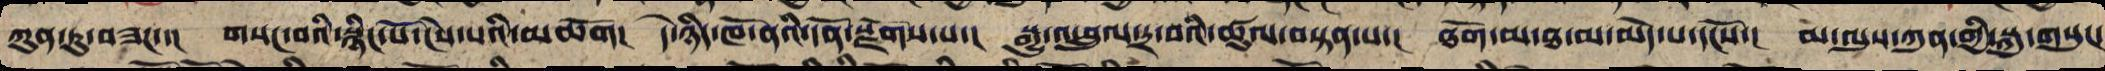ཀུན་ཏུ་བཟང་་། གསང་བའི་སྙིང་པོ་ངེས་པའི་མཆོག། དེ་ཉིད་ཁོ་ནའི་དོན་སྫོགས་པ་། སྒྱུ་འཕྲུལ་དྲ་བའི་ཚུལ་བསྟན་པ་། ཐོག་མ་ཐ་མ་མེད་པའི་དངོས་། མ་ལུས་ཀུན་གྱི་སྐུ་གསུང་
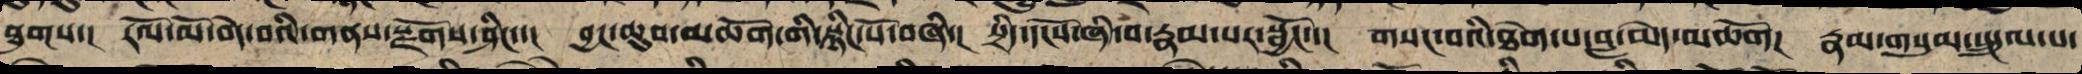ཐུགས་། རོལ་མོ་བདེ་བའི་གནས་སྫོགས་ཤིང་་། བྱང་ཆུབ་མཆོག་གི་སྙིང་པོ་བཞི་། སྲིད་དངོས་ཞི་བར་རྣམ་པར་སྦྱོང་་། གསང་བའི་ཐེག་པ་བླ་མེད་མཆོག། རྣམ་གསུམ་སྤྲུལ་པ་
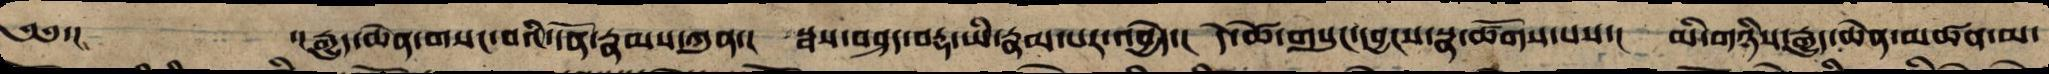༄༅་། ་།རྒྱུད་ཆེན་གསང་བའི་དོན་རྣམས་ཀུན་། སྦས་བཤད་བརྡ་ཡིས་རྣམ་པར་འབྱེད་། དེ་ཚེ་གསུང་དབྱངས་སྣ་ཚོགས་པས་། མི་གཉིས་རྒྱུད་ཆེན་མཚན་མ་
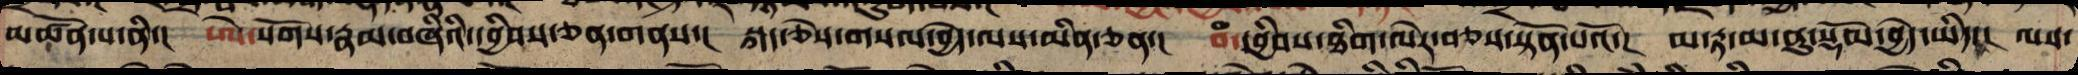མཚོན་པ་ནི་། ཨེ་སོགས་རྣམ་བཞིའི་དབྱིབས་ཅན་གནས་། སྐད་ཅེས་གསལ་བྱེད་ལས་མིང་ཅན་། བཾ་དབྱིབས་ཐིག་ལེར་བཅས་སྟོན་པའོ་། མ་རྟ་མ་ནུ་སྡོམ་བྱེད་ཡིད་། ལས་
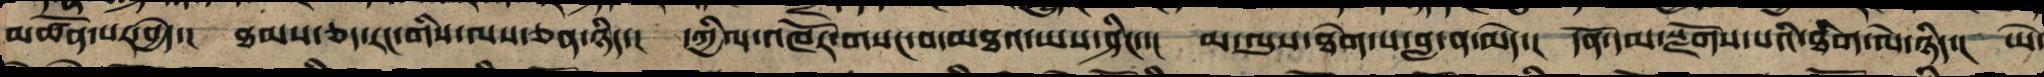མཚོན་པར་བྱེད་། ཐམས་ཅད་རང་གི་ལས་ཅན་ཉིད་། དཀྱིལ་འཁོར་གསང་བ་མཐའ་ཡས་ཤིང་་། མ་ལུས་ཐེག་པ་བླ་ན་མེད་། དོན་དམ་སྫོགས་པའི་ཐིག་ལེ་ཉིད་། ཡེ་
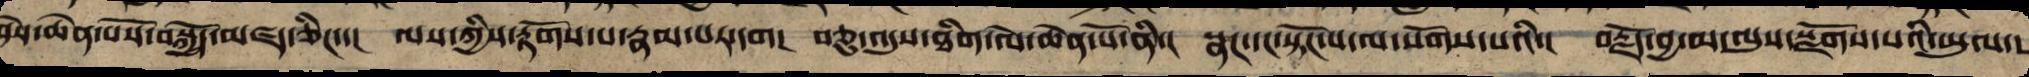ཤེས་ཆེན་པོས་བསྐྱོད་མཛད་ཅིང་་། ལས་ཀྱི་རྟོག་པ་རྣམ་པར་དག། བཅུ་འདུས་ཐིག་ལེ་ཆེན་པོ་ནི་། སྣང་དང་སྟོང་པ་ལ་སོགས་པའི་། བརྗོད་བྱ་མ་ལུས་སྫོགས་པའི་ཡུལ་
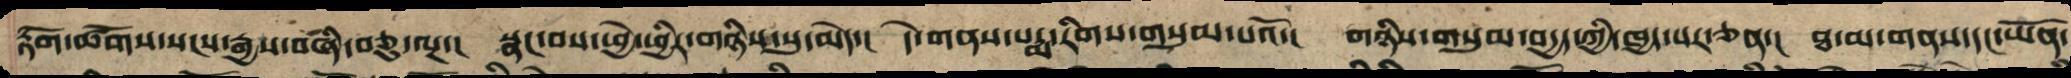རྟོག་ཚོགས་སངས་རྒྱས་བཞི་བཅུ་ལྔ་། སྣང་བས་ཕྱེ་ཕྱིར་གཉིས་སུ་མེད་། དེ་གནས་པདྨ་རིགས་གསུམ་པའོ་། གཉིས་གསུམ་བདྱད་ཀྱི་ཁྱད་པར་ཅན་། ཐ་མ་གནས་དང་ཡོན་
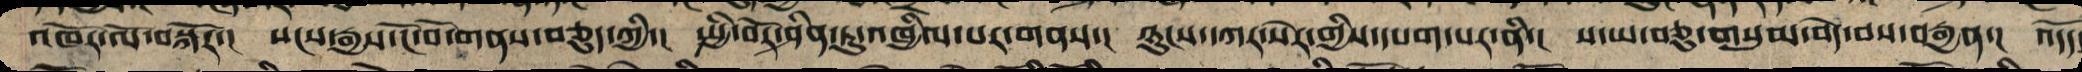འཁོར་ལོ་བསྐོར་། སངས་རྒྱས་ངོ་བོ་གནས་བཅུད་ཀྱིས་། སྤྱི་བོར་ཤིན་ཏུ་འཁྱིལ་པར་གནས་། ཉུང་དཀར་སེར་གྱིས་དཔག་པར་ནི་། ས་ཡ་བཅུ་གསུམ་བདེ་བས་བརྒྱན་། འདོད་
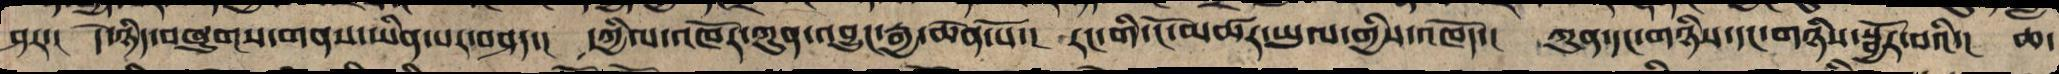ཤར་། དེ་ཉིད་བཞུགས་གནས་ཡིན་པར་བཤད་། དཀྱིལ་འཁོར་ཀུན་འབྱུང་རྒྱ་ཆེན་པོ་། རང་གི་ངོ་མཚར་ཡུལ་གྱིས་འཁོད་། ཀུན་ཀྱང་གཉིས་དང་གཉིས་སྦྱོར་བའི་། ཆ་
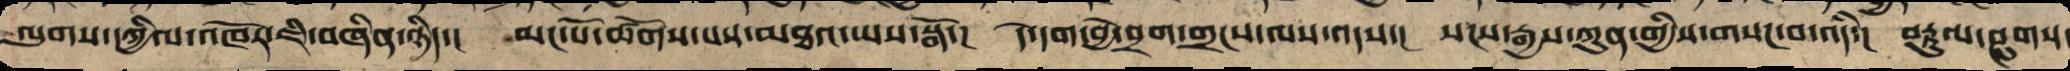ལུགས་དཀྱིལ་འཁོར་ཇི་བཞིན་དུ་། མང་པོ་ཚོགས་པས་མཐའ་ཡས་སྒོ་། དེ་དག་བྱེ་བྲག་གྲངས་ལས་འདས་། སངས་རྒྱས་ཀུན་གྱི་གསང་བ་འདི་། བརྟུལ་ཤུགས་
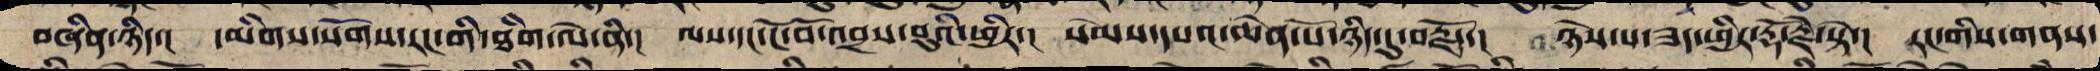བཞིན་ཉིད་། མིག་སོགས་རང་གི་ཐིག་ལེ་ནི་། ལས་དང་ངོ་བོ་འབྲས་བུའི་ཕྱིར་། སེམས་དཔའ་ཆེན་པོ་ཉིད་དུ་བརྗོད་། ཉེས་པ་ཟད་ཕྱིར་རྡོ་རྗེ་སྟེ་། རང་གི་གནས་
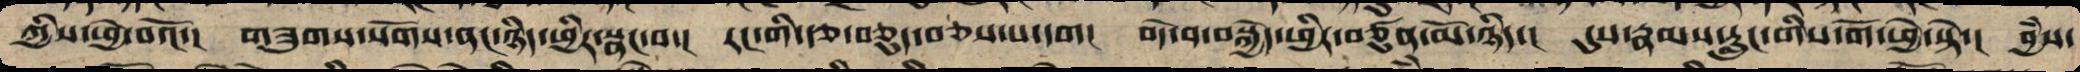ཀྱིས་ཕྱེ་བའོ་། གཟུགས་སོགས་ནང་ཉིད་ཕྱིར་སྣང་བ་། རང་གི་རྩ་བཅུད་བཅས་པ་དག། བདེ་བ་བསྐྱེད་ཕྱིར་བཙུན་མོ་ཉིད་། དུས་རྣམས་རླུང་གིས་གོ་ཕྱེ་སྟེ་། བྱཾས་
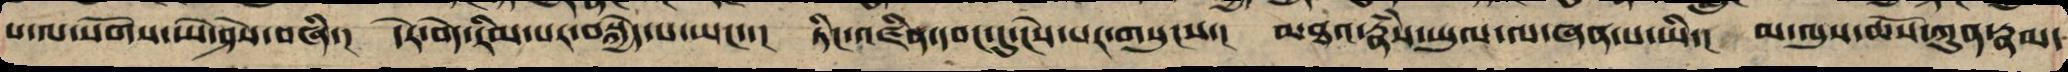པ་ལ་སོགས་ཡེ་ཤེས་བཞི་། དེར་བདེ་རིམ་པར་བསྐྱེད་པ་ཡང་་། ཏིང་འཛིན་དབང་དུ་ངེས་པར་གསུངས་། མཐའ་རྣཾས་ཡུལ་ལ་ཞན་པ་ཡི་། མ་ལུས་ཆོས་ཀུན་རྣམ་
